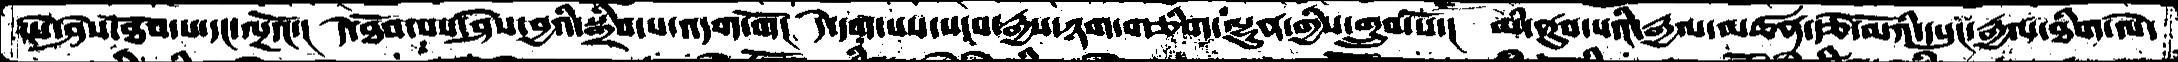ངེས་ཤེས་ཐོབ་པ་དང་ལྔའོ་།  དེ་ཐོབ་པས་ཤེས་བྱའི་སྒྲིབ་པ་འདག་གོ།  དེ་དག་པས་སངས་རྒྱས་ཉག་གཅིག་ལྷུན་གྱིས་གྲུབ་པོ་།  མི་ནུབ་པའི་རྒྱལ་མཚན་རྩེ་མོའི་དཔུང་རྒྱལ་ཐིག་ལེ་
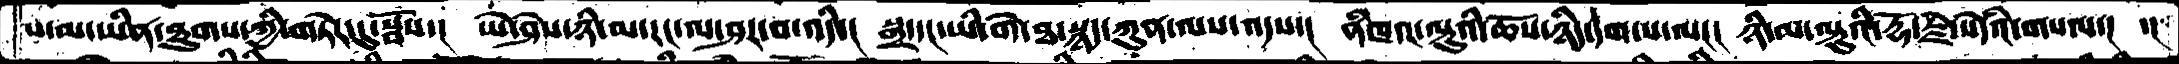པ་མ་ཡིན་ཐུགས་ཀྱི་གཏེར་དུ་སྦོས་།  ཡེ་ཤེས་ཉི་མ་རང་ལ་ཤར་བ་འདི་།  སྒྲ་དང་ཡི་གེ་ཐ་སྙད་ཀུན་ལས་འདས་།  ནཾཁའ་ལྟུ་འི་ཆོས་ཉིད་དག་པ་ལ།།།  ཉི་མ་ལྟུའི་རྡོ་རྗེ་སེདཾའི་གསལ་།  ་།
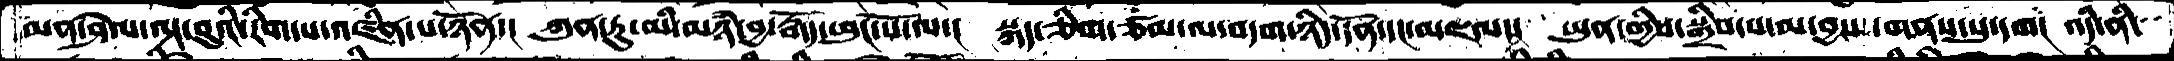མན་ཤེལ་ལྟ་བུའི་རིག་པ་འཛིན་པ་ཉོན་།  ཀུན་ཏུ་མི་མཉཾ་བྱ་རྒོད་ཕུང་པོ་ལ་།  སྐད་ཅིག་ཙམ་ལ་བདག་ཉིད་དོན་དང་མཇལ་།  ཡུན་གྱིས་སྒྲིབ་པ་མ་བྱས་གནས་སུ་དག།  འདི་ནི་
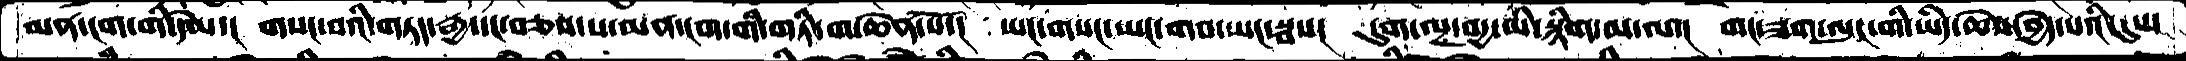མན་ངག་གི་དེམ་།  གསང་བའི་གཏད་རྒྱ་དང་བཅས་པ་མན་ངག་གི་གཏི་ག་ཆེན་པོ་།  ཡང་གསང་ཡང་གབ་ཡང་སྦས།  དུག་ལྔ་བདྱ་མི་སྙིག་མ་ལ་།  གང་ཟག་ལུང་གི་ཡིད་ཆེས་བྱེད་པའི་དུས་
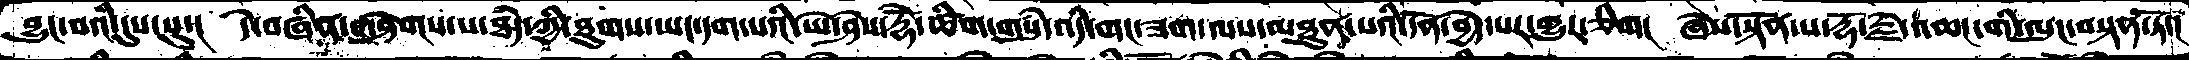བྱུང་བའི་དུས་སུ་།  དེ་བཞིན་གཤེགས་པ་ཐཾད་ཀྱི་ཐུགས་ཡང་དག་པའི་ཡེ་ཤེས་རྡོེ་ཚིག་གསུཾ་འདི་གང་ཟག་ལས་མཐུན་པའི་དོན་བྱེད་པར་གྱུར་ཅིག།  ཞེས་སྟོན་པ་རྡོ་རྗེ་འཆང་གི་ལུང་བསྟན་ཏོ་།
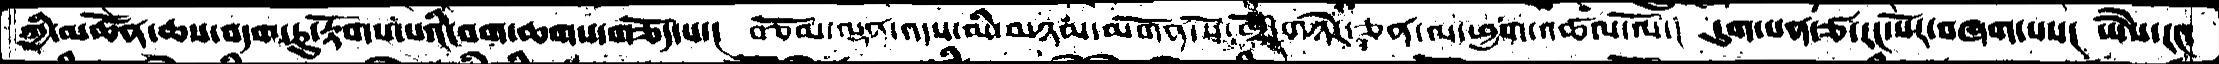ཀྱི་མཚོན་ཆས་བདག་ཏུ་རྟོགས་པའི་བག་ཆགས་གཅོད་པ་།  བཅོམ་ལྡན་འདས་མི་མཉམ་མགོན་པོ་ཁྲོ་གཉེར་ཅན་ལ་ཕྱག་འཚལ་ལོ་།  དུག་པན་ཙ་རང་པོར་བཞག་པས།  ཡཻས་རང་
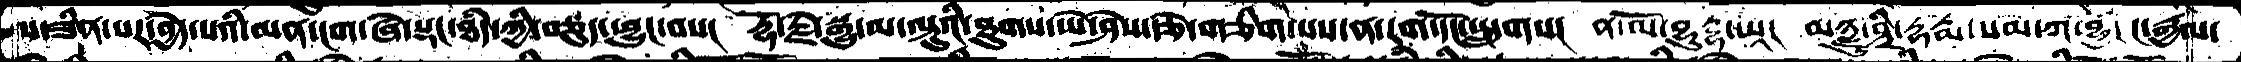ས་ཟིན་པར་བྱེད་པའི་མན་ངག་ཞེ་སྡང་ཐཾད་ཀྱི་བཅུད་ཕྱུང་བས།  རྡོ་རྗེ་སྒྱུ་མ་ལྟུའི་ཐུགས་ཡེ་ཤེས་རྩེ་གཅིག་པས་ན་རག་དོང་སྤྲུགས།  ན་མོ་བྷུདྡྷ་ཡཱ།  མཉྫུ་ཤྲཱི་དྷརྨ་སམ་ཀ་བྷྱ།  ང་རྒྱལ་
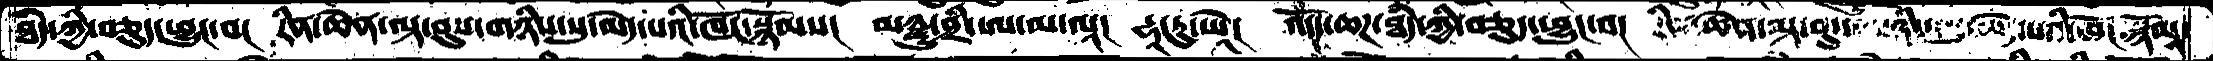ཐདཾ་ཀྱི་བཅུད་ཕྱུང་བ་། རིན་ཆེན་ལྟ་བུས་གཉིས་སུ་མེད་པའི་ཁོང་སྙོམས། མཉྫུ་ཤྲི་ཨ་མ་ལཱ། དྷཱ་ཏུ་ཡཱེ། འདོད་ཆཌ་ཐདཾ་ཀྱི་བཅུད་ཕྱུང་བ། རིན་ཆེན་ལྟ་བུ་གཉིས་སུ་མེད་པའི་ཁོང་སྙོམས་
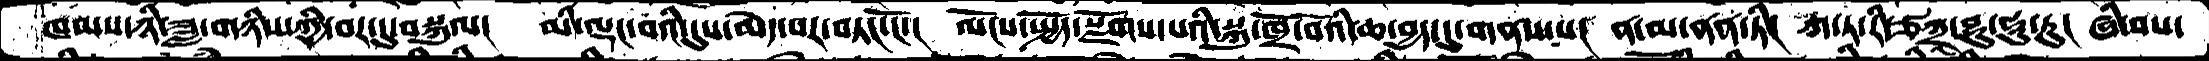ཁམས་ཉི་ཟླ་གཉིས་ཀྱི་བར་དུ་བསྐུལ།  མི་ལྡང་བའི་དུས་མེད་པར་བཏང་ངོ་།  ལོངས་སྤྱོད་སྫོགས་པའི་སྐུ་ཁྲོ་བོའི་ཆ་བྱད་དུ་གནས་པ།  ན་མ་ནན་ཏི།  ཀ་ཏ་རི་ཙཀྲ་བྷུ་ཧཱུ་ཏུ།  ཞི་བས་
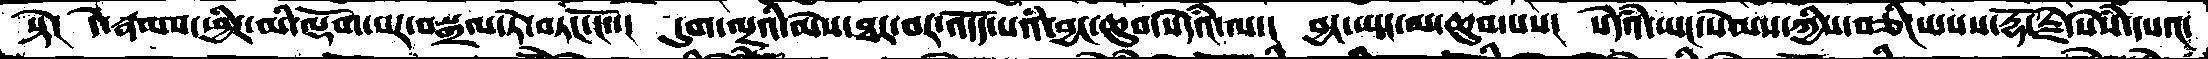སྟེ།  དེ་རྣམས་ཕྱིར་མི་ལྡོག་པར་བསྒྲལ་ཏེ་བཏང་ངོ་་།  དུག་ལྔའི་མེས་ཐར་བར་འདོད་པའི་བྱང་ཆུབ་སེཾདའ་ལ་།  བྱང་ཡང་མ་ཆུབ་པས།  སེཾདའ་ཡང་སེམས་ཀྱིས་བཅིངས་པས་རྡོ་རྗེ་སེཾས་དཔའ་
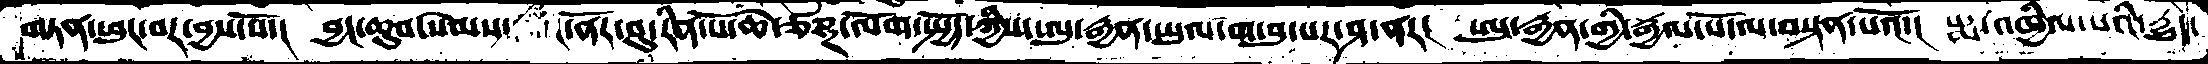གཏན་ཕུང་བར་བྱས་སོ་། བྱང་ཆུབ་སེམས་ནོར་བུ་རིན་པོ་ཆེ་ཙཎྜ་ལོག་སྤྱོད་ཀྱིས་ཨུ་རྒྱན་ཡུལ་ག་བུ་པར་ཤ་ནར། ཨུ་རྒྱན་གྱི་རྒྱལ་པོ་ལ་བསྟན་པའོ་། པདྨ་འཁྱིལ་པའི་དྱུད་
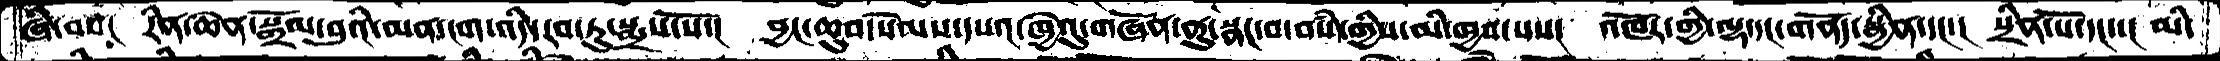ཞི་བས།  རིན་ཆེན་སྒྲོམ་བུའི་མན་ངག་འདི་རབ་ཏུ་སྨྲས་སོ་།  བྱང་ཆུབ་སེམས་དཔའ་ཁྱེའུ་གཞོན་ནུ་སྣང་བ་བསཾ་གྱིས་མི་ཁྱབ་པས།  འཁོར་གྱི་ལྷ་དང་གནོད་སྦྱིན་དང་་།  སྲིན་པོ་དང་་།  མི་
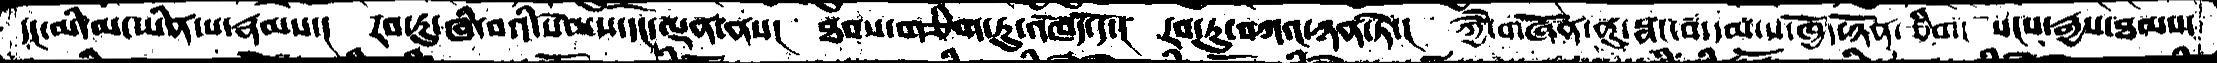དང་མི་མ་ཡིན་པ་རྣམས་།  རབ་ཏུ་ཞི་བའི་སེམས་དང་ལྡན་ནས།  ཐབས་གཅིག་ཏུ་འཁོད་དོ་།  རབ་ཏུ་བཀའ་ཉན་ཏེ་།  ཀྱཻ་གཞོན་ནུ་སྣང་བ་དམ་པ་ཁྱོད་ཉོན་ཅིག་།  སངས་རྒྱས་ཐམས་
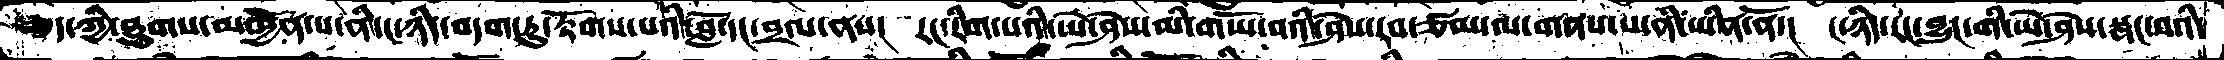ཅད་ཀྱི་ཐུགས་མཁྱེན་པ་ནི་ང་ཉིད་བདག་ཏུ་རྟོགས་པའི་བློ་དང་བྲལ་ནས།  རང་རིག་པའི་ཡེ་ཤེས་མི་གཡོ་བའི་ཤེས་རབ་ཙམ་ལ་གནས་པ་ནི་ཡིན་ནོ་།  ང་ཉིད་རང་བྱུང་གི་ཡེ་ཤེས་སྣང་བའི་
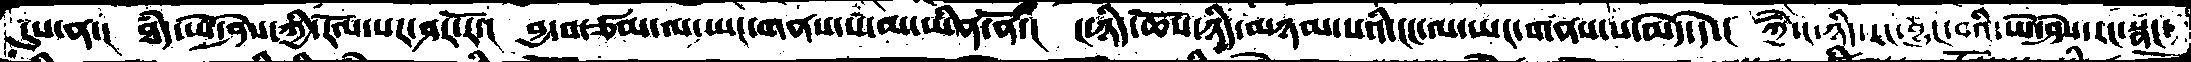དུས་ན་།  ཐཾད་ཡེ་ཤེས་ཀྱི་རོལ་པར་ཤར་རོ་།  བྱ་བ་ཙམ་ལ་ཡང་གནས་པ་མ་ཡིན་ནོ་།  ང་ཉིད་ཆོས་ཉིད་མཉམ་པའི་ངང་ལ་ཡང་གནས་པ་མེད་དེ་།  ཀྱཻ་ང་ཉིད་རང་བྱུང་བའི་ཡེ་ཤེས་རང་སྣང་
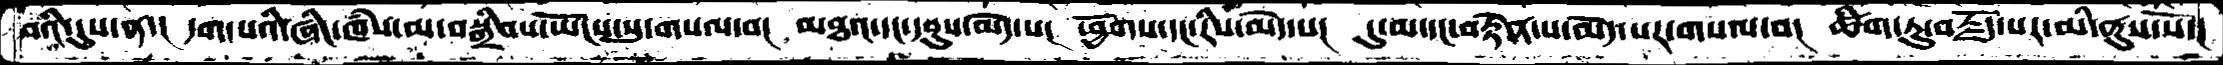བའི་དུས་ན་།  དག་པའི་ཞིང་ཁཾས་མ་བསྒྲིབས་ཡོངས་སུ་གསལ་བ།  མཐའ་དང་དབུས་མེད་པ།  ཕྱོགས་དང་རིས་མེད་པ།  དུ་མ་དང་བརྟེན་པ་མེད་པར་གསལ་བ།  ཚིག་ཏུ་བརྗོད་པར་མི་ནུས་སོ་།
